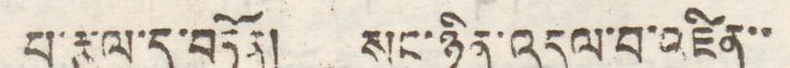པ་རྩལ་དུ་བཏོན། སང་ཉིན་འདུལ་བ་འཛིན་་
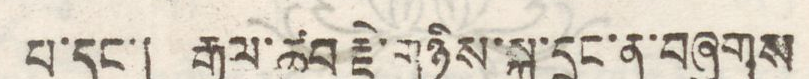པ་དང་། རྒྱལ་ཚབ་རྗེ་གཉིས་སྐུ་དྲུང་ན་བཞུགས
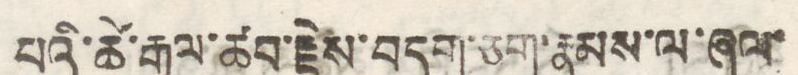པའི་ཚེ་རྒྱལ་ཚབ་རྗེས་བདག་ཅག་རྣམས་ལ་ཞལ་
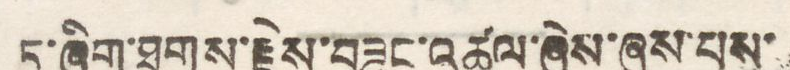ཏ་ཞིག་ཐུགས་རྗེས་བཟུང་འཚལ་ཞེས་ཞུས་པས་
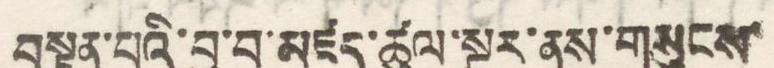བསྟན་པའི་བྱ་བ་མཛད་ཚུལ་སྔར་ནས་གསུངས་
